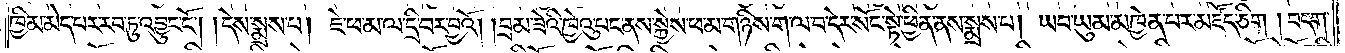ཁྱིམ་མེད་པར་རབ་ཏུ་འབྱུང་ངོ༌། །དེས་སྨྲས་པ། ཇེ་ཕ་མ་ལ་དྲི་བར་བྱའོ། །བྲམ་ཟེའི་ཁྱེའུ་པང་ནས་སྐྱེས་ཕ་མ་གཉིས་ག་ལ་བ་དེར་སོང་སྟེ་ཕྱིན་ནས་སྨྲས་པ། ཡབ་ཡུམ་མཁྱེན་པར་མཛོད་ཅིག །བདག་
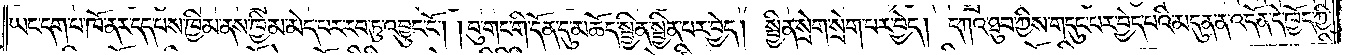ཡང་དག་པ་ཁོ་ནར་དད་པས་ཁྱིམ་ནས་ཁྱིམ་མེད་པར་རབ་ཏུ་འབྱུང་ངོ༌། །བུ་གང་གི་དོན་དུ་མཆོད་སྦྱིན་སྦྱིན་པར་བྱེད། སྦྱིན་སྲེག་སྲེག་པར་བྱེད། དཀའ་ཐུབ་ཀྱིས་གདུང་པར་བྱེད་པའི་མདུན་ན་འདོན་དེ་ཁྱོད་ཀྱི་
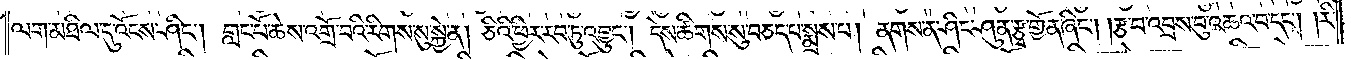ལག་མཐིལ་དུ་འོངས་ཤིང༌། གླང་པོ་ཆེས་འགྲོ་བའི་རིགས་སུ་སྐྱེ་ན། ཅིའི་ཕྱིར་རབ་ཏུ་འབྱུང༌། དེས་ཚིགས་སུ་བཅད་པ་སྨྲས་པ། ནགས་ན་ཤིང་ཤུན་རྩྭ་གྱོན་ཞིང༌། །རྩ་བ་འབྲས་བུ་འཆའ་བ་དང༌། །རི་
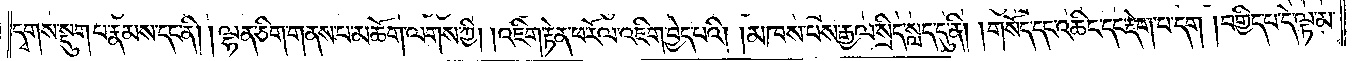དྭགས་སྡུག་པ་རྣམས་དང་ནི། །ལྷན་ཅིག་གནས་པ་མཆོག་ལགས་ཀྱི། །འཇིག་རྟེན་ཕ་རོལ་འཇིག་བྱེད་པའི། །མཁས་པས་རྒྱལ་སྲིད་སླད་དུ་ནི། །གསོད་དང་འཆིང་དང་རྡེག་པ་དག །བགྱིད་པ་དེ་ལྟ་མ་
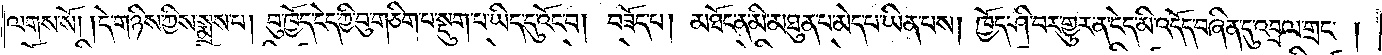ལགས་སོ། །དེ་གཉིས་ཀྱིས་སྨྲས་པ། བུ་ཁྱོད་ངེད་ཀྱི་བུ་གཅིག་པ་སྡུག་པ་ཡིད་དུ་འོང་བ། བཟོད་པ། མཐོང་ན་མི་མཐུན་པ་མེད་པ་ཡིན་པས། ཁྱོད་ཤི་བར་གྱུར་ན་ངེད་མི་འདོད་བཞིན་དུ་འབྲལ་གྲང༌།
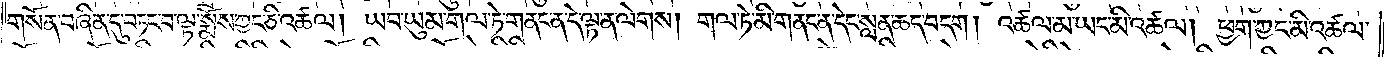གསོན་བཞིན་དུ་བཏང་བ་ལྟ་སྨོས་ཀྱང་ཅི་འཚལ། ཡབ་ཡུམ་གལ་ཏེ་གནང་ན་དེ་ལྟ་ན་ལེགས། གལ་ཏེ་མི་གནང་ན་དེང་སླན་ཆད་བདག། འཚལ་མ་ཡང་མི་འཚལ། ཕྱག་ཀྱང་མི་འཚལ་
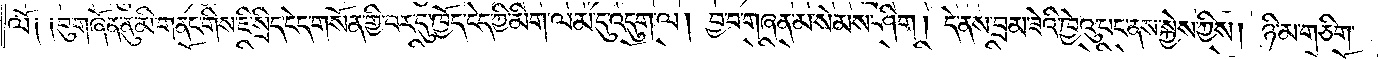ལོ༑ ༑བུ་གཞོན་ནུ་མི་གནང་གིས་ཇི་སྲིད་ངེད་གསོན་གྱི་བར་དུ་ཁྱོད་ངེད་ཀྱི་མིག་ལམ་དུ་འདུག་ལ། བྱ་བ་གཞན་མ་སེམས་ཤིག། དེ་ནས་བྲམ་ཟེའི་ཁྱེའུ་པང་ནས་སྐྱེས་ཀྱིས། ཉི་མ་གཅིག་
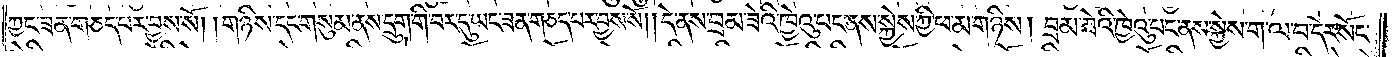ཀྱང་ཟན་གཅད་པར་བྱས་སོ། །གཉིས་དང་གསུམ་ནས་དྲུག་གི་བར་དུ་ཡང་ཟན་གཅད་པར་བྱས་སོ། །དེ་ནས་བྲམ་ཟེའི་ཁྱེའུ་པང་ནས་སྐྱེས་ཀྱི་ཕ་མ་གཉིས། བྲམ་ཟེའི་ཁྱེའུ་པང་ནས་སྐྱེས་ག་ལ་བ་དེར་སོང་
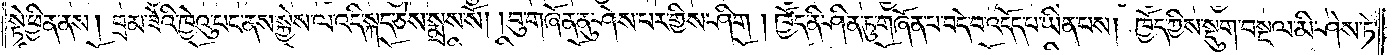སྟེ་ཕྱིན་ནས། བྲམ་ཟེའི་ཁྱེའུ་པང་ནས་སྐྱེས་ལ་འདི་སྐད་ཅེས་སྨྲས་སོ། །བུ་གཞོན་ནུ་ཤེས་པར་གྱིས་ཤིག །ཁྱོད་ནི་ཤིན་ཏུ་གཞོན་པ་བདེ་བ་འདོད་པ་ཡིན་པས། ཁྱོད་ཀྱིས་སྡུག་བསྔལ་མི་ཤེས་ཏེ་
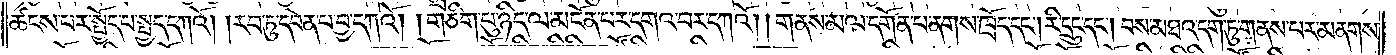ཚངས་པར་སྤྱོད་པ་སྤྱད་དཀའོ། །རབ་ཏུ་དབེན་པ་བྱ་དཀའོ། །གཅིག་པུ་ཉིད་ལ་མངོན་པར་དགའ་བར་དཀའོ། །གནས་མལ་དགོན་པ་ནགས་ཁྲོད་དང༌། རི་དྲུང་དང༌། བས་མཐའ་དག་ཏུ་གནས་པར་མནགས་
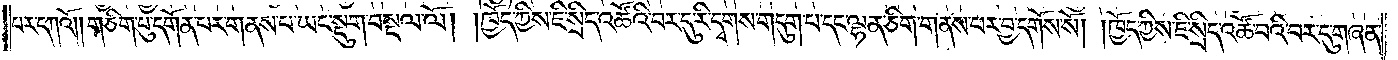པར་དཀའོ། །གཅིག་པུ་དགོན་པར་གནས་པ་ཡང་སྡུག་བསྔལ་ལོ། །ཁྱོད་ཀྱིས་ཇི་སྲིད་འཚོའི་བར་དུ་རི་དྭགས་གདུག་པ་དང་ལྷན་ཅིག་གནས་པར་བྱ་དགོས་སོ། །ཁྱོད་ཀྱིས་ཇི་སྲིད་འཚོ་བའི་བར་དུ་གཞན་
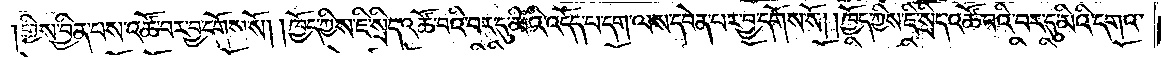གྱིས་བྱིན་པས་འཚོ་བར་བྱ་དགོས་སོ། །ཁྱོད་ཀྱིས་ཇི་སྲིད་འཚོ་བའི་བར་དུ་མིའི་འདོད་པ་དག་ལས་དབེན་པར་བྱ་དགོས་སོ། །ཁྱོད་ཀྱིས་ཇི་སྲིད་འཚོ་བའི་བར་དུ་མིའི་དགའ་
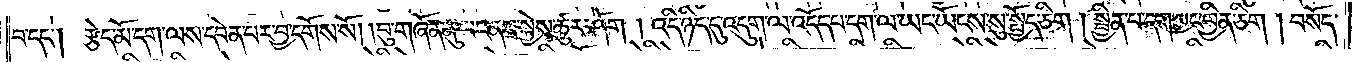བ་དང༌། རྩེད་མོ་དག་ལས་དབེན་པར་བྱ་དགོས་སོ། །བུ་གཞོན་ནུ་པང་ནས་སྐྱེས་ཚུར་ཤོག །འདི་ཉིད་དུ་འདུག་ལ་འདོད་པ་དག་ལ་ཡང་ཡོངས་སུ་སྤྱོད་ཅིག །སྦྱིན་པ་དག་ཀྱང་བྱིན་ཅིག །བསོད་
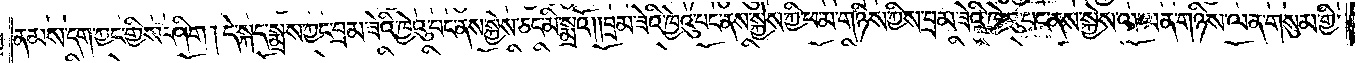ནམས་དག་ཀྱང་གྱིས་ཤིག །དེ་སྐད་སྨྲས་ཀྱང་བྲམ་ཟེའི་ཁྱེའུ་པང་ནས་སྐྱེས་ཅང་མི་སྨྲའོ། །བྲམ་ཟེའི་ཁྱེའུ་པང་ནས་སྐྱེས་ཀྱི་ཕ་མ་གཉིས་ཀྱིས་བྲམ་ཟེའི་ཁྱེའུ་པང་ནས་སྐྱེས་ལ་ལན་གཉིས་ལན་གསུམ་གྱི་
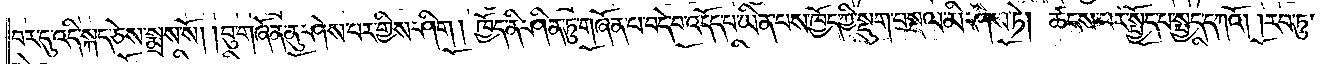བར་དུ་འདི་སྐད་ཅེས་སྨྲས་སོ། །བུ་གཞོན་ནུ་ཤེས་པར་གྱིས་ཤིག །ཁྱོད་ནི་ཤིན་ཏུ་གཞོན་པ་བདེ་བ་འདོད་པ་ཡིན་པས་ཁྱོད་ཀྱི་སྡུག་བསྔལ་མི་ཤེས་ཏེ། ཚངས་པར་སྤྱོད་པ་སྤྱད་དཀའོ། །རབ་ཏུ་
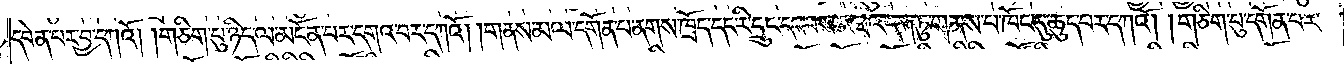དབེན་པར་བྱ་དཀའོ། །གཅིག་པུ་ཉིད་ལ་མངོན་པར་དགའ་བར་དཀའོ། །གནས་མལ་དགོན་པ་ནགས་ཁྲོད་དང་རི་དྲུང་དང་བས་མཐའ་དག་ཏུ་གནས་པ་ཁོང་དུ་ཆུད་པར་དཀའོ། །གཅིག་པུ་དགོན་པར་
